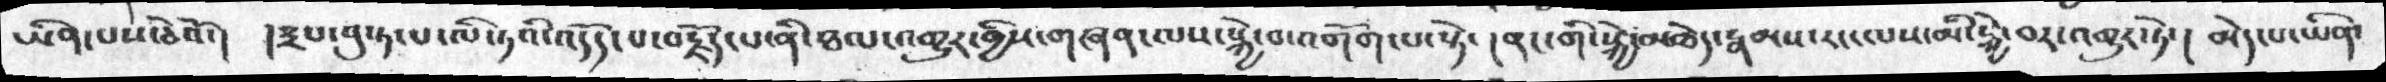ཡིན་པས་ཅེའོ་། །༣པ་བུ་ཏ་པ་ལི་ཏའི་འདོད་པ་བརྗོད་པ་ནི་ཐལ་འགྱུར་གྱིས་གཞན་ལས་སྐྱེ་བ་འགོག་པ་སྟེ་། ནང་གི་སྐྱེ་མཆེད་རྣམས་རང་ལས་མི་སྐྱེ་བར་འགྱུར་ཏེ་། མེད་པ་ཡིན་
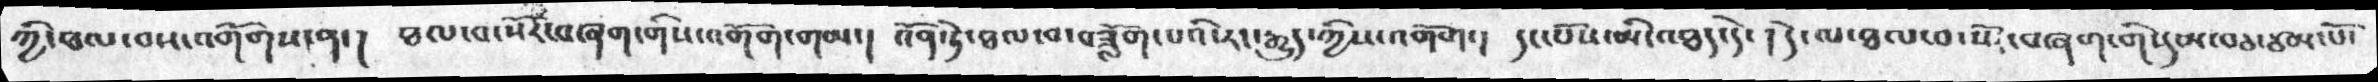ཀྱི་ཐལ་བས་འགོགས་ན་།  ཐལ་བ་སོར་བཞག་གིས་འགོག་གམ་།  འོན་ཏེ་ཐལ་བ་བཟློག་པའི་རང་རྒྱུད་ཀྱིས་འགོག་། དང་པོས་མི་འཐད་དེ་། །དེ་ལ་ཐལ་བ་སོར་བཞག་གི་དམ་བཅ་ཙམ་པོ་
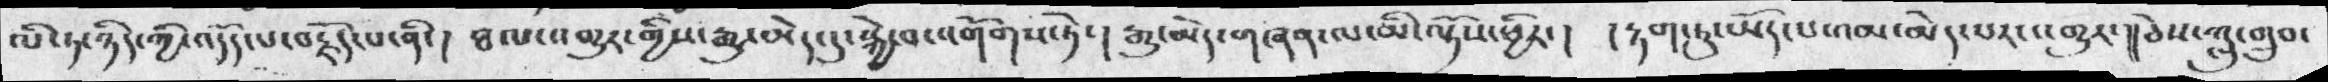ལི་ཏ་ཉིད་ཀྱི་འདོད་པ་བརྗོད་པ་ནི་ ། ཐལ་འགྱུར་གྱིས་རྒྱུ་མེད་དུ་སྐྱེ་བ་འགོགས་ཏེ་།  རྒྱུ་མེད་གཞན་ལ་མི་ལྟོས་ཕྱིར་ ། རྟག་ཏུ་ཡོད་པ་འམ་མེད་པར་འགྱུར་།།ཅེས་ཀླུ་གྲུབ་
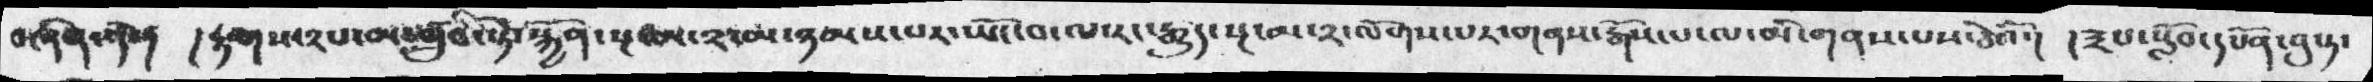བཞིན་དེ་།   །རྟགས་༡པ་མ་གྲུབ་སྟེ་སྐྱོན་སྔ་བས་་༢་མ་ཉམས་པར་ཡོང་བ་ལ་རང་རྒྱུད་སྔ་མ་༢་ལོགས་པར་གནས་རྒོས་པ་ལ་མི་གནས་པས་ཅེའི་།  །༣པ་སློབ་དཔོན་བུ་ཏ་
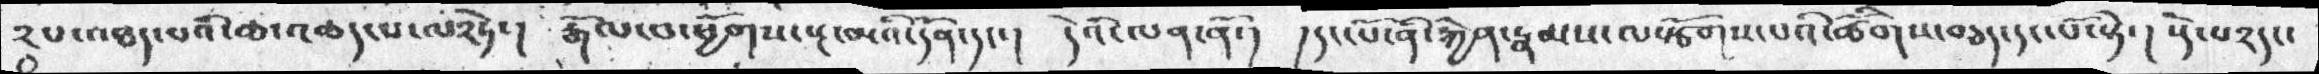༢པ་འཐད་པའི་ཆ་འཆད་པ་ལ༢ཏེ་།   རྒོལ་བ་ཕྱོགས་སྔ་མའི་དོན་དང་།   དེའི་ལན་ནོ་།   །དང་པོ་ནི་རྐྱེན་རྣམས་ལསྩོགས་པའི་ཚིགས་བཅད་དང་པོ་སྟེ་།  སྡེ་པ༢དང་
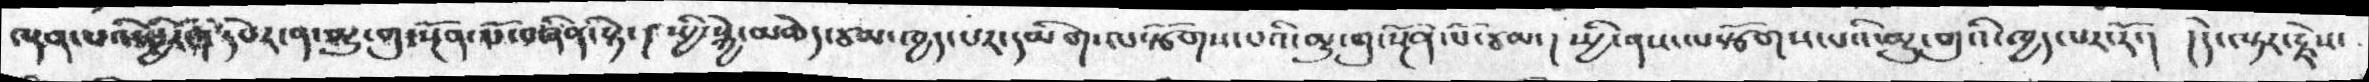ལྡན་པའི་ཕྱིར་དརོ་། དཔེར་ན་མྱུ་གུ་སྔོན་པོ་བཞིན་སྟེ་ ། སྤྱི་སྐྱེ་མཆེ་ཙམ་ཁྱད་པར་དམིགས་ལསྩོགས་པའི་མྱུ་གུ་སྔོན་པོ་ཙམ་། སྤྱི་ནས་ལསྩོགས་པའི་མྱུ་གུའི་ཁྱད་པར་རོ་།  །དེ་ལྟར་རྗེས་
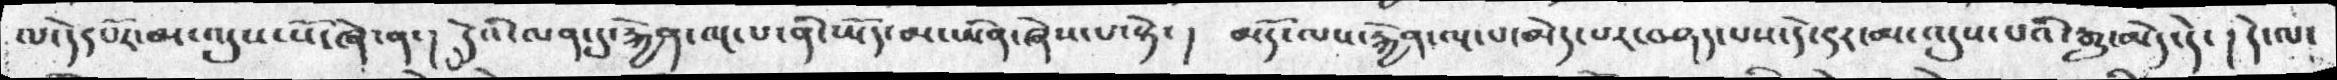ལ་དེར་པོར་མ་འདུས་སོ་ཞེ་ན་།   དེའི་ལན་དུ་རྐྱེན་ལྔ་པ་ནི་ཡོད་མ་ཡིན་ཞེས་པ་སྟེ་།   མདོ་ལས་རྐྱེན་ལྔ་པ་མེད་པར་བཤད་པས་དེ་དར་མ་འདུས་པའི་རྒྱུ་མེད་དེ་  ། དེ་ལ་
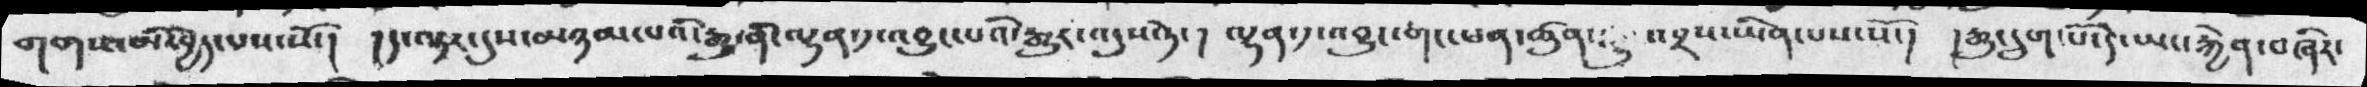གགས་མི་བྱེད་པས་སོ་། །ད་ལྟར་དུས་མཉམ་པའི་རྒྱུ་ནི་ལྷན་༡་འབྱུང་པའི་རྒྱུར་འདུས་ཏེ་།  ལྷན་༡་འབྱུང་གང་ཕན་ཚུན་རྒྱུ་འབྲས་ཡིན་པས་སོ་།  རྒྱུ་དྲུག་པོ་དེ་ཡང་རྐྱེན་བཞིར་
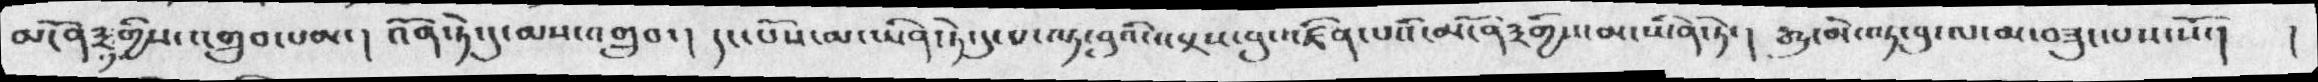མངོན༣གྱིུས་འགྲུབ་པམ་།  འོན་ཏེ་དུ་མས་འགྲུབ་།  དང་པོསལ་མ་ཡིན་ཏེ་དུ་པ་ལྟ་བུའི་འབྲས་བུ་འཛིན་པའི་མངོན་༣གྱིས་མ་ཡིན་ཏེ་།   རྒྱུ་མེ་འཏ་བུ་ལ་མ་བཟུང་པས་སོ་།  །
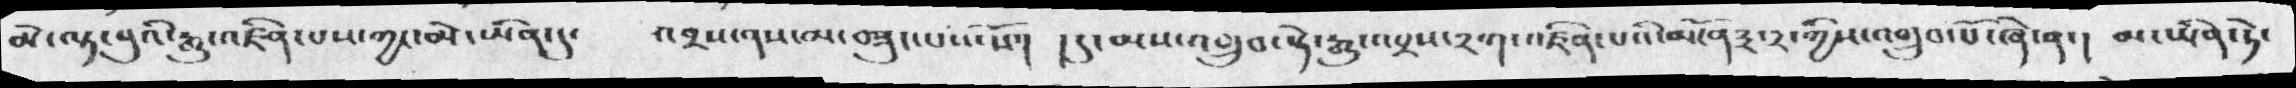མེ་ལྟ་བུའི་རྒྱུ་འཛིན་པས་ཀྱང་མེ་ཡིན་དུ་     འབྲས་ནས་མ་བཟུང་པས་སོ་།  །དུ་མས་འགྲུབ་སྟེ་རྒྱུ་འབྲས་༢ག་འཛིན་པའི་མངོན༣་གྱིས་འགྲུབ་པོ་ཞེ་ན་།  མ་ཡིན་ཏེ་
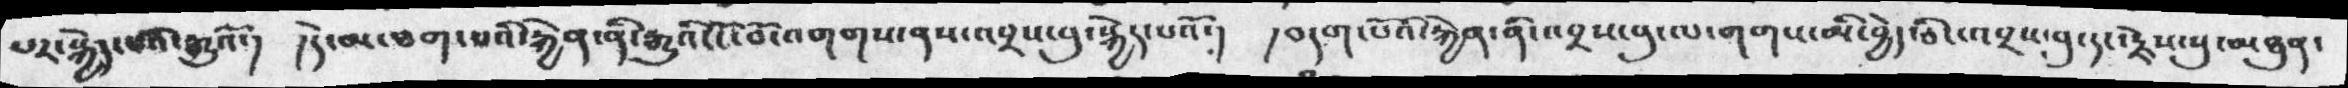པར་སྐྱེད་པའི་རྒྱུའི་།   ། དེ་མ་ཐག་པའི་རྐྱེན་ནི་རྒྱུའི་ངོ་བོ་འགགས་ནས་འབྲས་བུ་སྐྱེད་པའོ་།   ། བདག་པོའི་རྐྱེན་ནི་འབྲས་བུ་ལ་གགས་མི་བྱེད་ཅིང་འབྲས་བུ་དང་རྗེས་སུ་མཐུན་
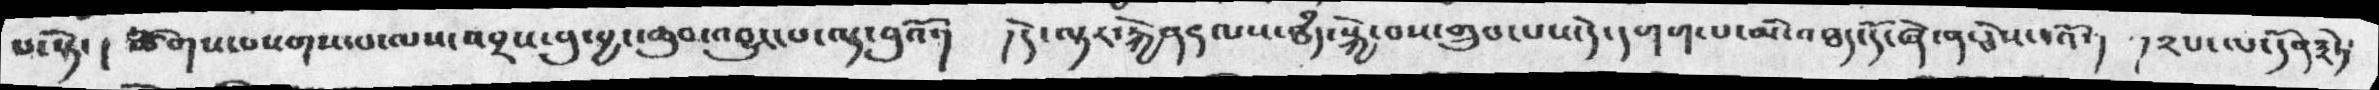པ་སྟེ་ ། ཚོགས་བསགས་པ་ལས་འབྲས་བུ་བྱང་ཆུབ་འབྱུང་པ་ལྟ་བུའོ་།   ། དེ་ལྟར་རྐྱེན༩་ལས་ཐཾད་སྐྱེ་བས་གྲུབ་པས་དེ་དགག་པ་མི་འཐད་དོ་ཞེས་ན་ཅེས་པའོ་། །༢པ་ལ་དོན་༣ཏེ་
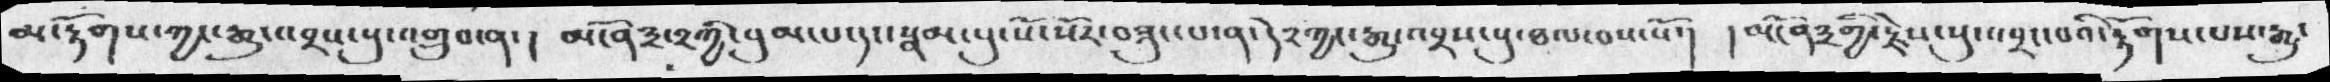མ་རྟོགས་ཀྱང་རྒྱུ་འབྲས་སུ་འགྲུབ་ན་། མངོན༣་༢ཀྱི་བུམ་པ་དང་སྣམ་བུ་སོ་སོར་བཟུང་པ་ན་དེ༢ཀྱང་རྒྱུ་འབྲས་སུ་ཐལ་བས་སོ་། །མངོན༣གྱི་རྗེས་སུ་འབྲང་པའི་རྟོགས་པས་རྒྱུ་
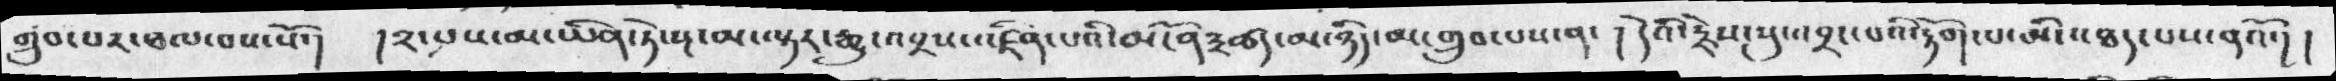གྲུབ་པར་ཐལ་བས་སོ་། །༢་པས་མ་ཡིན་ཏེ་སྔ་མ་ལྟར་རྒྱུ་འབྲས་འཛིན་པའི་མངོན༣ཚད་མ་ཉིད་མ་གྲུབ་པས་ན་ ། དེའི་རྗེས་སུ་འབྲང་པའི་རྟོག་པ་མི་འཐད་པས་ནའོ་། །
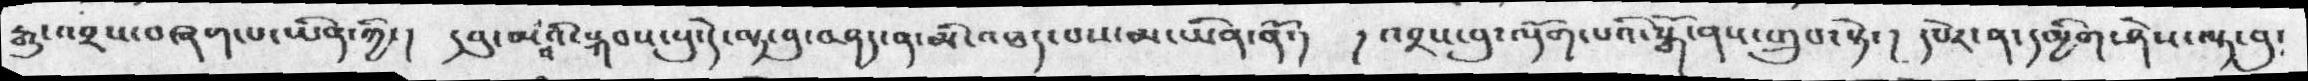རྒྱུ་འབྲས་བཞག་པ་ཡིན་གྱི་།   དབུ་མ་བའི་སྐབས་སུ་དེ་ལྟ་བུ་བཤད་ན་མི་འཐད་པས་མ་ཡིན་ནོ་།   །འབྲས་བུ་ལྡོག་པའི་སྒོ་ནས་གྲུབ་སྟེ་།   དཔེར་ན་དམྱིག་ཤེས་ལྟ་བུ་
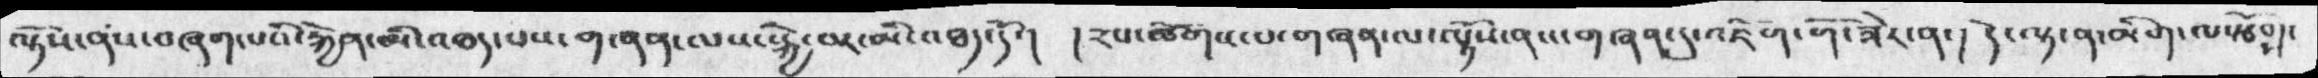ལྟོས་ནས་བཞག་པའི་རྐྱེན་མི་འཐད་པས་གཞན་ལས་སྐྱེ་བར་མི་འཐད་དོ་།  །༢པ་ཚོགས་པ་གཞན་ལ་ལྟོས་ནས་གཞན་དུ་འཇོག་གོ་ཟེར་ན་།  དེ་ལྟ་ན་མིག་ལསྩོགས་
